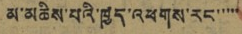མ་མཆིས་པའི་ཁྱད་འཕགས་རང་་་་་
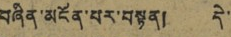བཞིན་མངོན་པར་བསྟན། དེ་
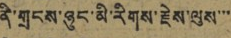ནི་གྲངས་ཉུང་མི་རིགས་རྗེས་ལུས་་་
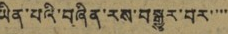ཡིན་པའི་བཞིན་རས་བསྒྱུར་བར་་་་
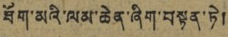ཐོག་མའི་ལམ་ཆེན་ཞིག་བསྟན་ཏེ།
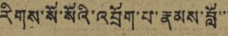རིགས་སོ་སོའི་འབྲོག་པ་རྣམས་བློ་་་
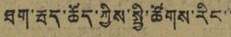ཐག་རྦད་ཆོད་ཀྱིས་སྤྱི་ཚོགས་རིང་་
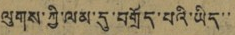ལུགས་ཀྱི་ལམ་དུ་བགྲོད་པའི་ཡིད་་
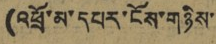(འཕྲོ་མ་དཔར་ངོས་གཉིས་
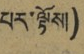པར་ལྟོས།)
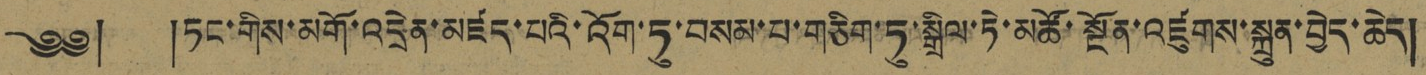༄༅། །ཏང་གིས་མགོ་འདྲེན་མཛད་པའི་འོག་ཏུ་བསམ་པ་གཅིག་ཏུ་སྒྲིལ་ཏེ་མཚོ་སྔོན་འཛུགས་སྐྲུན་བྱེད་ཆེད།
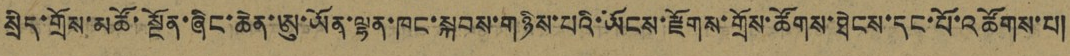སྲིད་གྲོས་མཚོ་སྔོན་ཞིང་ཆེན་ཨུ་ཡོན་ལྷན་ཁང་སྐབས་གཉིས་པའི་ཡོངས་རྫོགས་གྲོས་ཚོགས་ཐེངས་དང་པོ་འཚོགས་པ།
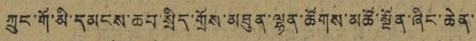ཀྲུང་གོ་མི་དམངས་ཆབ་སྲིད་གྲོས་མཐུན་ལྷན་ཚོགས་མཚོ་སྔོན་ཞིང་ཆེན་
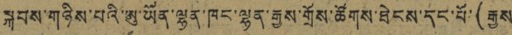སྐབས་གཉིས་པའི་ཨུ་ཡོན་ལྷན་ཁང་ལྷན་རྒྱས་གྲོས་ཚོགས་ཐེངས་དང་པོ་(རྒྱས་
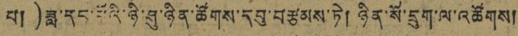པ།)ཟླ་དང་པོའི་ཉི་ཤུ་ཉིན་ཚོགས་དབུ་བརྩམས་ཏེ། ཉིན་སོ་དྲུག་ལ་འཚོགས།
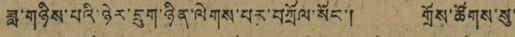ཟླ་གཉིས་པའི་ཉེར་དྲུག་ཉིན་ལེགས་པར་བཀྲོལ་སོང་། གྲོས་ཚོགས་སུ་
